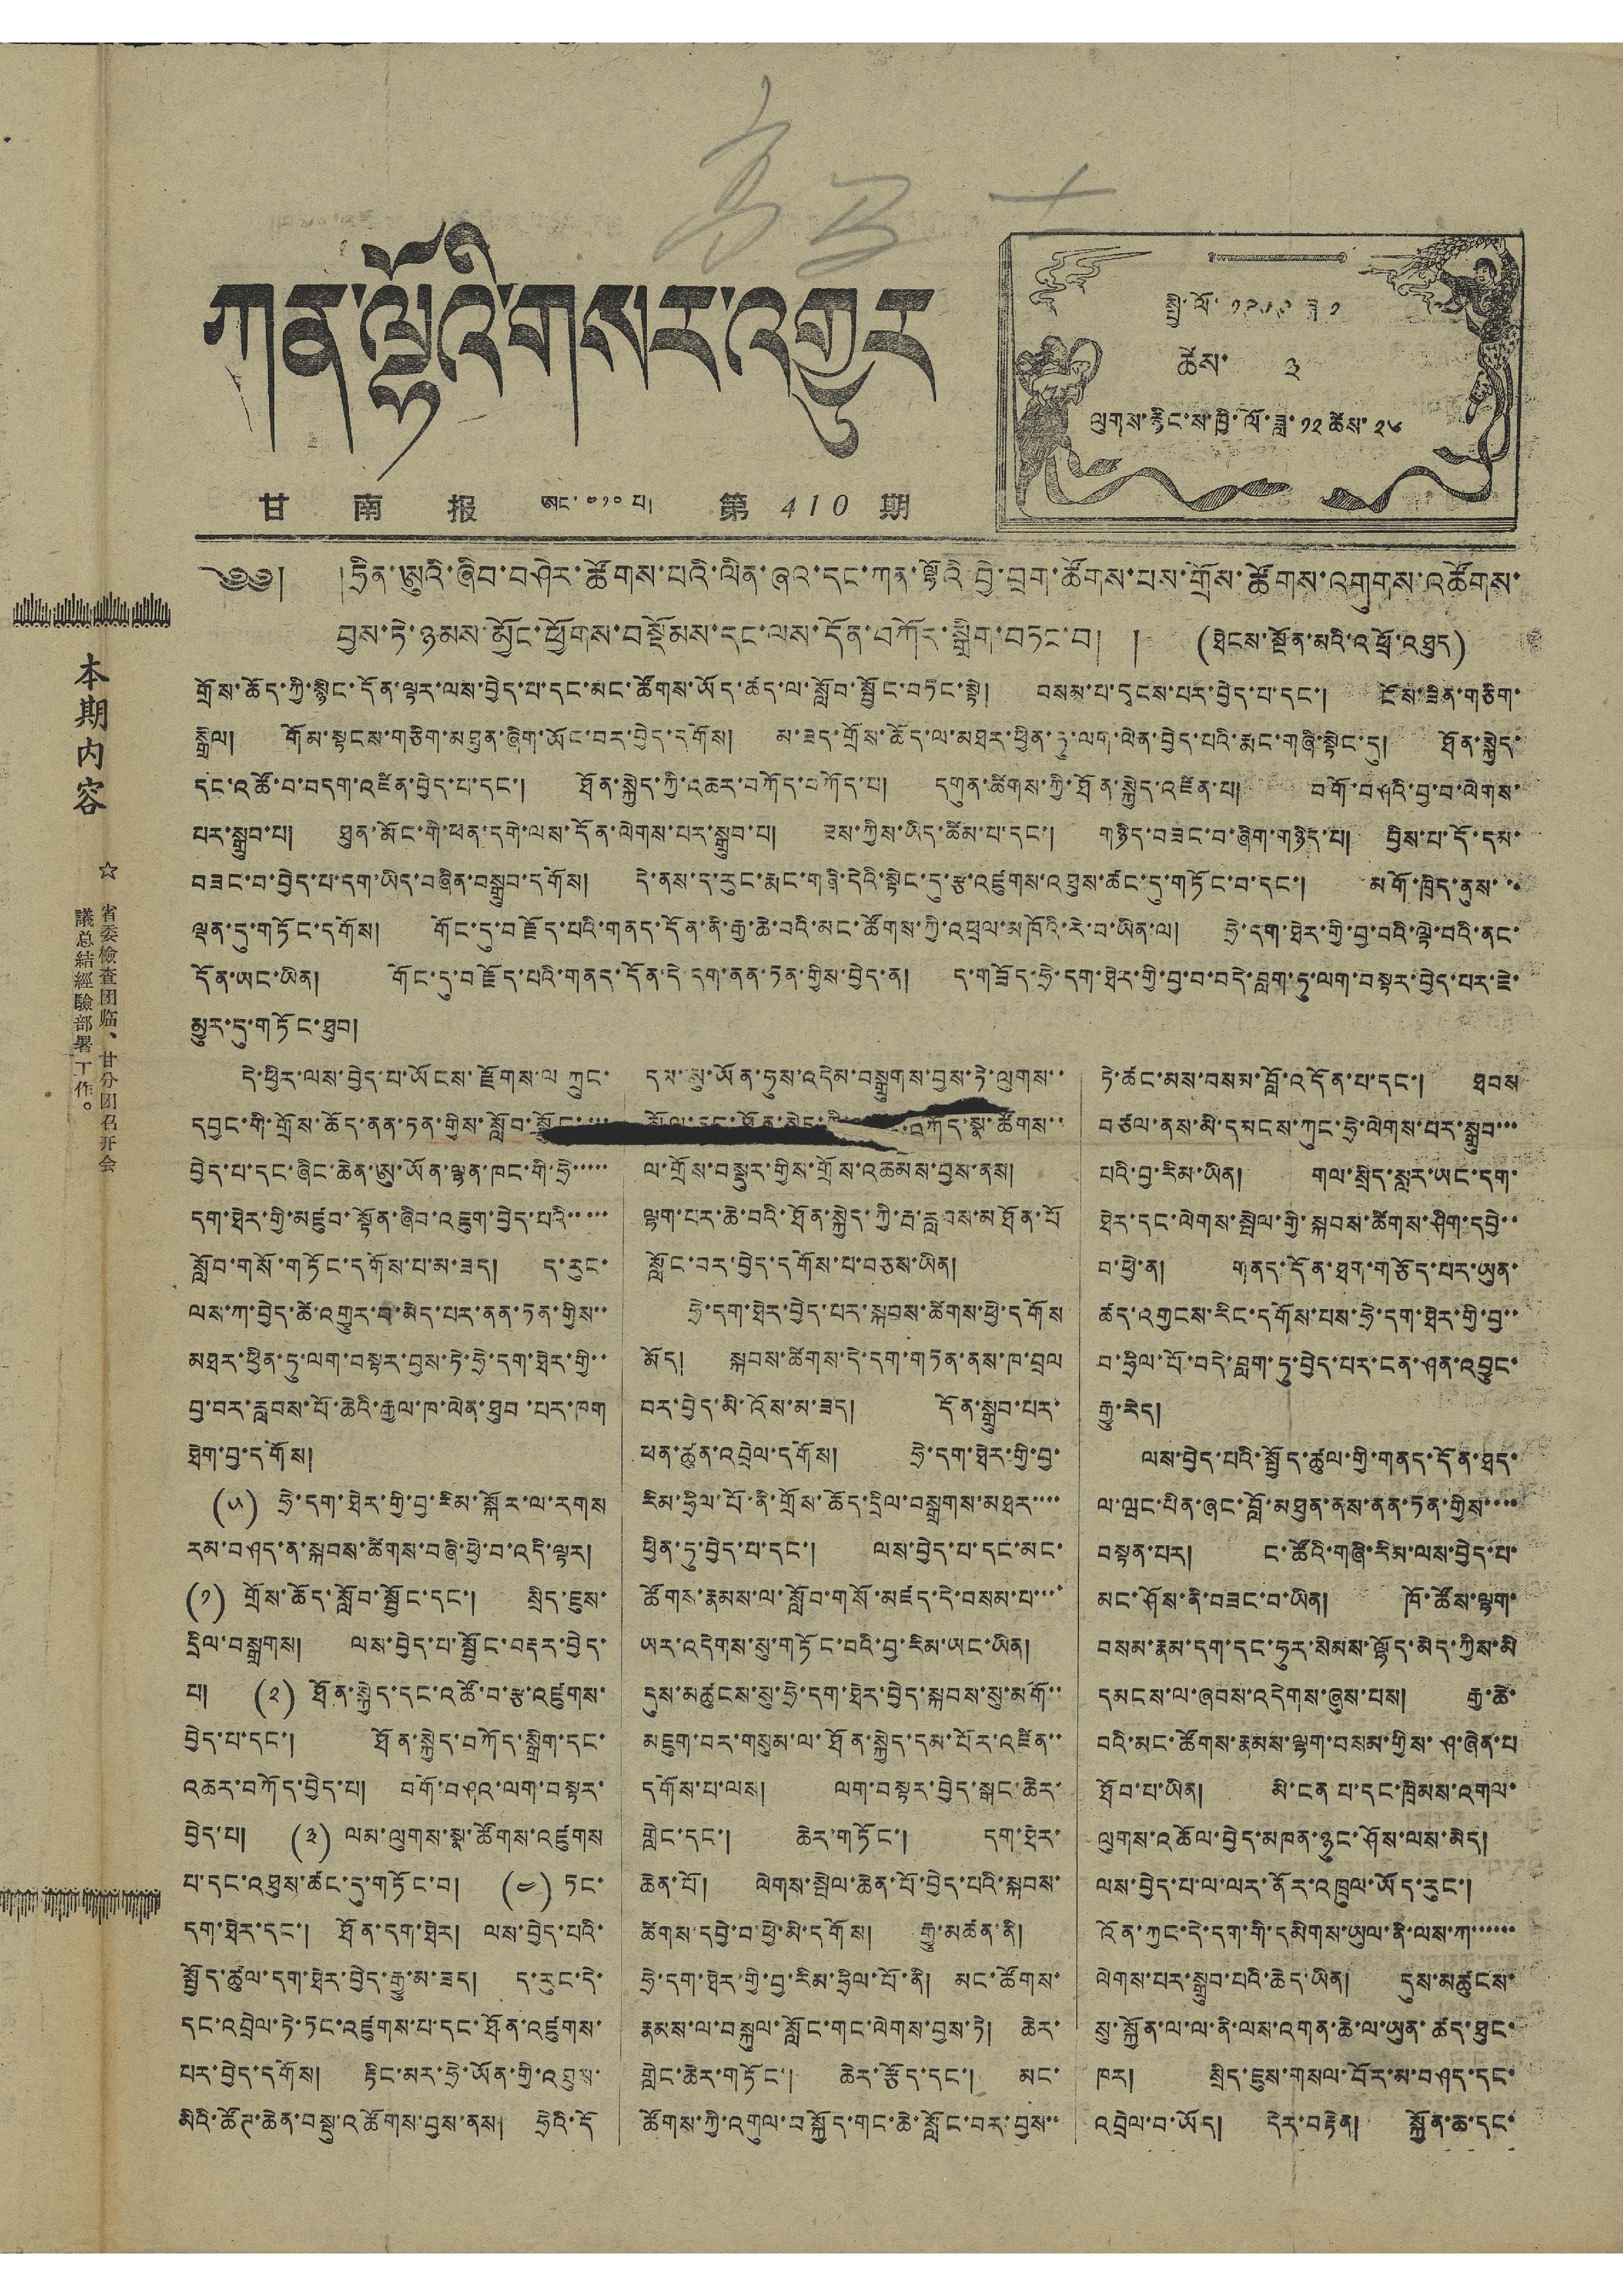ཀན་ལྷོའི་གསར་འགྱུར
甘 南 报 ཨང་ ༤༡༠ པ། 第 410 期
སྤྱི་ལོ་ ༡༩༥༩ ཟླ་ ༢
ཚེས་ ༣
ལུགས་རྙིང་ས་ཁྱི་ལོ་ཟླ་ ༡༢ ཚེས་ ༢༦
本期內容
☆ 省委檢查团临、甘分团召开会
議总結經驗部署工作。
༄༅། །ཧྲིན་ཨུའི་ཞིབ་བཤེར་ཚོགས་པའི་ལིན་ཞའ་དང་ཀན་ལྷོའི་བྱེ་བྲག་ཚོགས་པས་གྲོས་ཚོགས་འགུགས་འཚོགས་
བྱས་ཏེ་ཉམས་མྱོང་ཕྱོགས་བསྡོམས་དང་ལས་དོན་བཀོར་སྒྲིག་བཏང་བ། ། (ཐེངས་སྔོན་མའི་འཕྲོ་འཐུད)
གྲོས་ཆོད་ཀྱི་སྙིང་དོན་ལྟར་ལས་བྱེད་པ་དང་མང་ཚོགས་ཡོད་ཚད་ལ་སློབ་སྦྱོང་བཏང་སྟེ། བསམ་པ་དྭངས་པར་བྱེད་པ་དང་། ངོས་ཟིན་གཅིག་
སྒྲིལ། གོམ་སྟངས་གཅིག་མཐུན་ཞིག་ཡོང་བར་བྱེད་དགོས། མ་ཟད་གྲོས་ཆོད་ལ་མཐར་ཕྱིན་ཏུ་ལག་ལེན་བྱེད་པའི་རྨང་གཞི་སྟེང་དུ། ཐོན་སྐྱེད་
དང་འཚོ་བ་བདག་འཛིན་བྱེད་པ་དང་། ཐོན་སྐྱེད་ཀྱི་འཆར་བཀོད་བཀོད་པ། དགུན་ཚིགས་ཀྱི་ཐོན་སྐྱེད་འཛིན་པ། བགོ་བཤའི་བྱ་བ་ལེགས་
པར་སྒྲུབ་པ། ཐུན་མོང་གི་ཕན་དགེ་ལས་དོན་ལེགས་པར་སྒྲུབ་པ། ཟས་ཀྱིས་ཡིད་ཚིམ་པ་དང་། གཉིད་བཟང་བ་ཞིག་གཉིད་པ། བྱིས་པ་དོ་དམ་
བཟང་བ་བྱེད་པ་དག་ཡིད་བཞིན་བསྒྲུབ་དགོས། དེ་ནས་ད་རུང་རྨང་གཞི་དེའི་སྟེང་དུ་རྩ་འཛུགས་འཐུས་ཚང་དུ་གཏོང་བ་དང་། མགོ་ཁྲིད་ནུས་་་
ལྡན་དུ་གཏོང་དགོས། གོང་དུ་བརྗོད་པའི་གནད་དོན་ནི་རྒྱ་ཆེ་བའི་མང་ཚོགས་ཀྱི་འཕྲལ་མཁོའི་རེ་བ་ཡིན་ལ། ཧྲེ་དག་ཐེར་གྱི་བྱ་བའི་ལྟེ་བའི་ནང་
དོན་ཡང་ཡིན། གོང་དུ་བརྗོད་པའི་གནད་དོན་དེ་དག་ནན་ཏན་གྱིས་བྱེད་ན། ད་གཟོད་ཧྲེ་དག་ཐེར་གྱི་བྱ་བ་བདེ་བླག་ཏུ་ལག་བསྟར་བྱེད་པར་ཇེ་
མྱུར་དུ་གཏོང་ཐུབ།
དེ་ཕྱིར་ལས་བྱེད་པ་ཡོངས་རྫོགས་ལ་ཀྲུང་
དབྱང་གི་གྲོས་ཆོད་ནན་ཏན་གྱིས་སློབ་སྦྱོང་་་་
བྱེད་པ་དང་ཞིང་ཆེན་ཨུ་ཡོན་ལྷན་ཁང་གི་ཧྲེ་་་་་
དག་ཐེར་གྱི་མཛུབ་སྟོན་ཞིབ་འཇུག་བྱེད་པའི་་་་་
སློབ་གསོ་གཏོང་དགོས་པ་མ་ཟད། ད་རུང་
ལས་ཀ་བྱེད་ཚེ་འགྱུར་བ་མེད་པར་ནན་ཏན་གྱིས་་
མཐར་ཕྱིན་ཏུ་ལག་བསྟར་བྱས་ཏེ་ཧྲེ་དག་ཐེར་གྱི་་
བྱ་བར་རླབས་པོ་ཆེའི་རྒྱལ་ཁ་ལེན་ཐུབ་པར་ཁག
ཐེག་བྱ་དགོས།
(༥) ཧྲེ་དག་ཐེར་གྱི་བྱ་རིམ་སྐོར་ལ་རགས
རམ་བཤད་ན་སྐབས་ཚིགས་བཞི་ཕྱེ་བ་འདི་ལྟར།
(༡) གྲོས་ཆོད་སློབ་སྦྱོང་དང་། སྲིད་ཇུས་
དྲིལ་བསྒྲགས། ལས་བྱེད་པ་སྦྱོང་བརྡར་བྱེད་
པ། (༢) ཐོན་སྐྱེད་དང་འཚོ་བ་རྩ་འཛུགས་
བྱེད་པ་དང་། ཐོན་སྐྱེད་བཀོད་སྒྲིག་དང་
འཆར་བཀོད་བྱེད་པ། བགོ་བཤའ་ལག་བསྟར་
བྱེད་པ། (༣) ལམ་ལུགས་སྣ་ཚོགས་འཛུགས
པ་དང་འཐུས་ཚང་དུ་གཏོང་བ། (༤) ཏང་
དག་ཐེར་དང་། ཐོན་དག་ཐེར། ལས་བྱེད་པའི་
སྤྱོད་ཚུལ་དག་ཐེར་བྱེད་རྒྱུ་མ་ཟད། ད་རུང་དེ་
དང་འབྲེལ་ཏེ་ཏང་འཛུགས་པ་དང་ཐོན་འཛུགས་
པར་བྱེད་དགོས། རྟིང་མར་ཧྲེ་ཡོན་གྱི་འཐུས་
མིའི་ཚོཊ་ཆེན་བསྡུ་འཚོགས་བྱས་ནས། ཧྲེའི་དོ
དམ་ཨུ་ཡོན་ཧུས་འདེམ་བསྒྲུགས་བྱས་ཏེ་ལུགས་་
སྲོལ་དང་ཐོན་སྐྱེད་ཀྱི་འཆར་བཀོད་སྣ་ཚོགས་་
ལ་གྲོས་བསྡུར་གྱིས་གྲོས་འཆམས་བྱས་ནས།
ལྷག་པར་ཆེ་བའི་ཐོན་སྐྱེད་ཀྱི་རྦ་རླབས་མཐོན་པོ
སློང་བར་བྱེད་དགོས་པ་བཅས་ཡིན།
ཧྲེ་དག་ཐེར་བྱེད་པར་སྐབས་ཚིགས་ཕྱེ་དགོས
མོད། སྐབས་ཚིགས་དེ་དག་གཏན་ནས་ཁ་བྲལ
བར་བྱེད་མི་འོས་མ་ཟད། དོན་སྒྲུབ་པར་
ཕན་ཚུན་འབྲེལ་དགོས། ཧྲེ་དག་ཐེར་གྱི་བྱ་
རིམ་ཧྲིལ་པོ་ནི་གྲོས་ཆོད་དྲིལ་བསྒྲགས་མཐར་་་་
ཕྱིན་ཏུ་བྱེད་པ་དང་། ལས་བྱེད་པ་དང་མང་
ཚོགས་རྣམས་ལ་སློབ་གསོ་མཛད་དེ་བསམ་པ་་་་
ཡར་འདེགས་སུ་གཏོང་བའི་བྱ་རིམ་ཡང་ཡིན།
དུས་མཚུངས་སུ་ཧྲེ་དག་ཐེར་བྱེད་སྐབས་སུ་མགོ་་
མཇུག་བར་གསུམ་ལ་ཐོན་སྐྱེད་དམ་པོར་འཛིན་་
དགོས་པ་ལས། ལག་བསྟར་བྱེད་སྒང་ཆེར་
གླེང་དང་། ཆེར་གཏོང་། དག་ཐེར་
ཆེན་པོ། ལེགས་སྤེལ་ཆེན་པོ་བྱེད་པའི་སྐབས་
ཚིགས་དབྱེ་བ་ཕྱེ་མི་དགོས། རྒྱུ་མཚན་ནི།
ཧྲེ་དག་ཐེར་གྱི་བྱ་རིམ་ཧྲིལ་པོ་ནི། མང་ཚོགས་
རྣམས་ལ་བསྐུལ་སློང་གང་ལེགས་བྱས་ཏེ། ཆེར་
གླེང་ཆེར་གཏོང་། ཆེར་རྩོད་དང་། མང་
ཚོགས་ཀྱི་འགུལ་བསྐྱོད་གང་ཆེ་སློང་བར་བྱས་་
ཏེ་ཚང་མས་བསམ་བློ་འདོན་པ་དང་། ཐབས་
བཙལ་ནས་མི་དམངས་ཀུང་ཧྲེ་ལེགས་པར་སྒྲུབ་་་
པའི་བྱ་རིམ་ཡིན། གལ་སྲིད་སླར་ཡང་དག་
ཐེར་དང་ལེགས་སྤེལ་གྱི་སྐབས་ཚིགས་ཤིག་དབྱེ་་
བ་ཕྱེ་ན། གནད་དོན་ཐག་གཅོད་པར་ཡུན་
ཚད་འགྱངས་རིང་དགོས་པས་ཧྲེ་དག་ཐེར་གྱི་བྱ་་
བ་ཧྲིལ་པོ་བདེ་བླག་ཏུ་བྱེད་པར་ངན་ཤན་འབྱུང་
རྒྱུ་རེད།
ལས་བྱེད་པའི་སྤྱོད་ཚུལ་གྱི་གནད་དོན་ཐད་
ལ་ཝང་པིན་ཞང་བློ་མཐུན་ནས་ནན་ཏན་གྱིས་་་་
བསྟན་པར། ང་ཚོའི་གཞི་རིམ་ལས་བྱེད་པ་
མང་ཤོས་ནི་བཟང་བ་ཡིན། ཁོ་ཚོས་ལྷག་
བསམ་རྣམ་དག་དང་ཧུར་སེམས་ལྷོད་མེད་ཀྱིས་མི
དམངས་ལ་ཞབས་འདེགས་ཞུས་པས། རྒྱ་ཆེ་
བའི་མང་ཚོགས་རྣམས་ལྷག་བསམ་གྱིས་ཤ་ཞེན་པ
ཐོབ་པ་ཡིན། མི་ངན་པ་དང་ཁྲིམས་འགལ་
ལུགས་འཆོལ་བྱེད་མཁན་ཉུང་ཤོས་ལས་མེད།
ལས་བྱེད་པ་ལ་ལར་ནོར་འཁྲུལ་ཡོད་རུང་།
འོན་ཀྱང་དེ་དག་གི་དམིགས་ཡུལ་ནི་ལས་ཀ་་་་་་
ལེགས་པར་སྒྲུབ་པའི་ཆེད་ཡིན། དུས་མཚུངས་
སུ་སྐྱོན་ལ་ལ་ནི་ལས་འགན་ཆེ་ལ་ཡུན་ཚད་ཐུང་
ཁར། སྲིད་ཇུས་གསལ་བོར་མ་བཤད་དང་
འབྲེལ་བ་ཡོད། དེར་བརྟེན། སྐྱོན་ཆ་དང་
